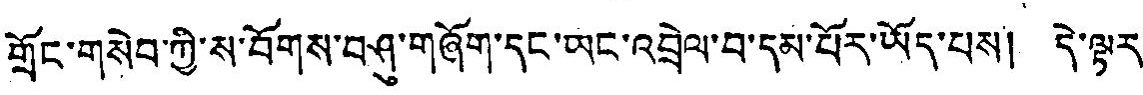གྲོང་གསེབ་ཀྱི་ས་བོགས་བཤུ་གཞོག་དང་ཡང་འབྲེལ་བ་དམ་པོར་ཡོད་པས། དེ་ལྟར་
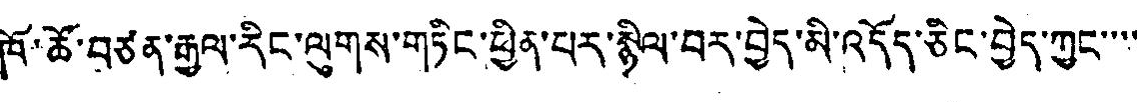ཁོ་ཚོ་བཙན་རྒྱལ་རིང་ལུགས་གཏིང་ཕྱིན་པར་སྙིལ་བར་བྱེད་མི་འདོད་ཅིང་བྱེད་ཀྱང་་་་
